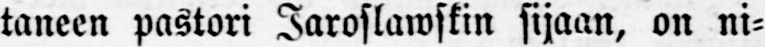taneen pastori Taroslawskin sijaan, on ni-
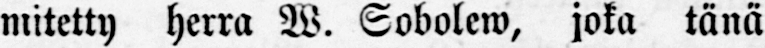mitetty herra W. Sobolew, joka tänä
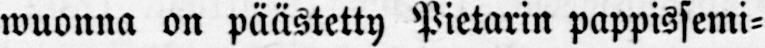wuonna on päästetty Pietarin pappissemi-
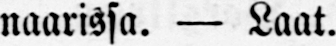naarissa. — Laat.
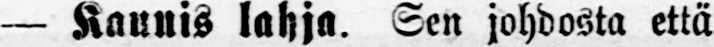— Kaunis lahja. Sen johdosta että
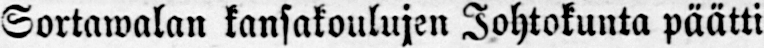Sortawalan kansakoulujen Johtokunta päätti
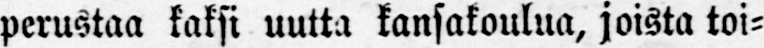perustaa kaksi uutta kansakoulua, joista toi-
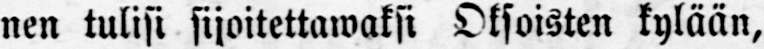nen tulisi sijoitettawaksi Oksoisten kylään,
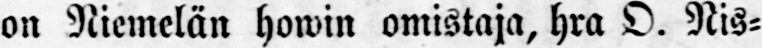on Niemelän howin omistaja, hra O. Nis-
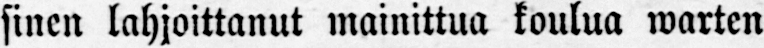sinen lahjoittanut mainittua koulua warten
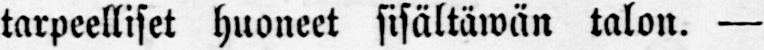tarpeelliset huoneet sisältäwän talon. —
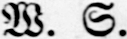W. S.
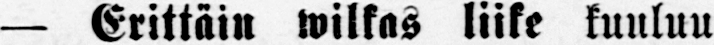— Erittäin wilkas liike kuuluu
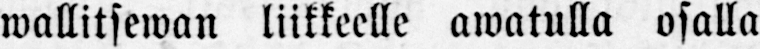wallitsewan liikkeelle awatulla osalla
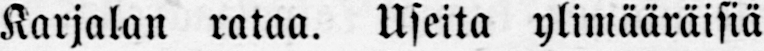Karjalan rataa. Useita ylimääräisiä
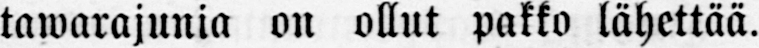tawarajunia on ollut pakko lähettää.
